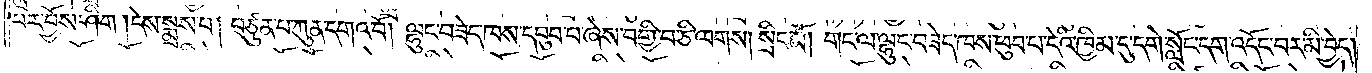པར་བྱོས་ཤིག །དེས་སྨྲས་པ། བཙུན་པ་ཀུན་དགའ་བོ། ལྷུང་བཟེད་ཁས་དབུབ་པ་ཞེས་བགྱི་བ་ཅི་ལགས། སྲིང་མོ། གང་ལ་ལྷུང་བཟེད་ཁས་ཕུབ་པ་དེའི་ཁྱིམ་དུ་དགེ་སློང་དག་འདོང་བར་མི་བྱེད་
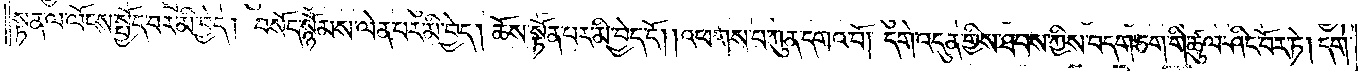སྟན་ལ་ལོངས་སྤྱོད་པར་མི་བྱེད། བསོད་སྙོམས་ལེན་པར་མི་བྱེད། ཆོས་སྟོན་པར་མི་བྱེད་དོ། །འཕགས་པ་ཀུན་དགའ་བོ། དགེ་འདུན་གྱིས་ཐབས་ཀྱིས་བདག་ཅག་གི་ཚུལ་ཤིང་བོར་ཏེ། དགེ་
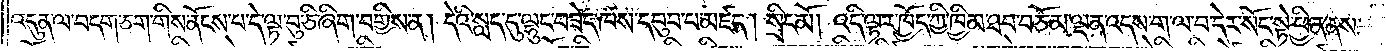འདུན་ལ་བདག་ཅག་གིས་ནོངས་པ་དེ་ལྟ་བུ་ཅི་ཞིག་བགྱིས་ན། དེའི་སླད་དུ་ལྷུང་བཟེད་ཁས་དབུབ་པ་མཛད། སྲིང་མོ། འདི་ལྟར་ཁྱོད་ཀྱི་ཁྱིམ་ཐབ་བཅོམ་ལྡན་འདས་ག་ལ་བ་དེར་སོང་སྟེ་ཕྱིན་ནས་
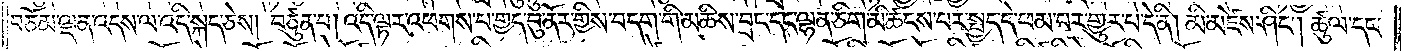བཅོམ་ལྡན་འདས་ལ་འདི་སྐད་ཅེས། བཙུན་པ། འདི་ལྟར་འཕགས་པ་གྱད་བུ་ནོར་གྱིས་བདག་གི་མཆིས་བྲང་དང་ལྷན་ཅིག་མི་ཚངས་པར་སྤྱད་དེ་ཕམ་པར་གྱུར་པ་དེ་ནི། མི་མཛེས་ཤིང༌། ཚུལ་དང་
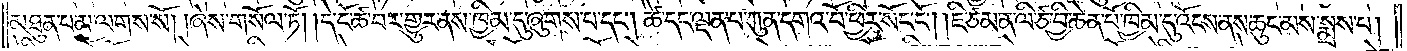མཐུན་པ་མ་ལགས་སོ། །ཞེས་གསོལ་ཏོ། །དེ་ངོ་ཚ་བར་གྱུར་ནས་ཁྱིམ་དུ་ཞུགས་པ་དང༌། ཚེ་དང་ལྡན་པ་ཀུན་དགའ་བོ་ཕྱིར་སོང་ངོ༌། །ཇི་ཙམ་ན་ལི་ཙ་བྱི་ཆེན་པོ་ཁྱིམ་དུ་འོངས་ནས་ཆུང་མས་སྨྲས་པ།
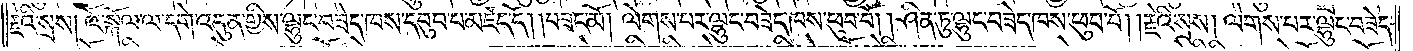རྗེའི་སྲས། འོ་སྐོལ་ལ་དགེ་འདུན་གྱིས་ལྷུང་བཟེད་ཁས་དབུབ་པ་མཛད་དོ། །བཟང་མོ། ལེགས་པར་ལྷུང་བཟེད་ཁས་ཕུབ་བོ། །ཤིན་ཏུ་ལྷུང་བཟེད་ཁས་ཕུབ་བོ། །རྗེའི་སྲས། ལེགས་པར་ལྷུང་བཟེད་
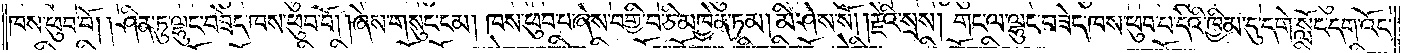ཁས་ཕུབ་བོ། །ཤིན་ཏུ་ལྷུང་བཟེད་ཁས་ཕུབ་བོ། །ཞེས་གསུང་ངམ། ཁས་ཕུབ་པ་ཞེས་བགྱི་བ་ཅི་མཁྱེན་ཏམ། མི་ཤེས་སོ། །རྗེའི་སྲས། གང་ལ་ལྷུང་བཟེད་ཁས་ཕུབ་པ་དེའི་ཁྱིམ་དུ་དགེ་སློང་དག་འོང་
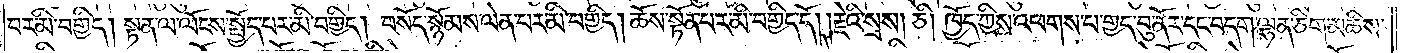བར་མི་བགྱིད། སྟན་ལ་ལོངས་སྤྱོད་པར་མི་བགྱིད། བསོད་སྙོམས་ལེན་པར་མི་བགྱིད། ཆོས་སྟོན་པར་མི་བགྱིད་དོ། །རྗེའི་སྲས། ཅི། ཁྱོད་ཀྱིས་འཕགས་པ་གྱད་བུ་ནོར་དང་བདག་ལྷན་ཅིག་མཆིས་
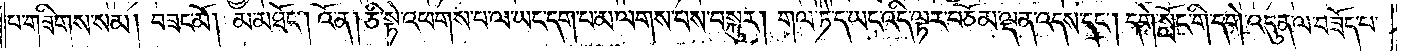པ་གཟིགས་སམ། བཟང་མོ། མ་མཐོང༌། འོ་ན། ཅི་སྟེ་འཕགས་པ་ལ་ཡང་དག་པ་མ་ལགས་པས་བསྐུར། གལ་ཏེ་ད་ཡང་འདི་ལྟར་བཅོམ་ལྡན་འདས་དང༌། དགེ་སློང་གི་དགེ་འདུན་ལ་བཟོད་པ་
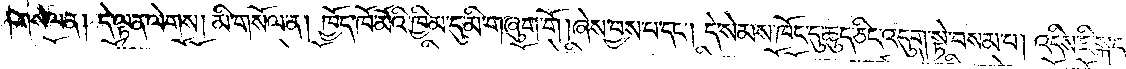གསོལ་ན། དེ་ལྟ་ན་ལེགས། མི་གསོལ་ན། ཁྱོད་ཁོ་མོའི་ཁྱིམ་དུ་མི་གཞུག་གོ །ཞེས་བྱས་པ་དང༌། དེ་སེམས་ཁོང་དུ་ཆུད་ཅིང་འདུག་སྟེ་བསམ་པ། འདིས་ཇི་སྐད་
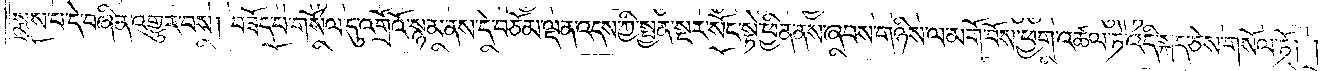སྨྲས་པ་དེ་བཞིན་འགྱུར་བས། བཟོད་པ་གསོལ་དུ་འགྲོའོ་སྙམ་ནས་དེ་བཅོམ་ལྡན་འདས་ཀྱི་སྤྱན་སྔར་སོང་སྟེ་ཕྱིན་ནས་ཞབས་གཉིས་ལ་མགོ་བོས་ཕྱག་འཚལ་ཏེ་འདི་སྐད་ཅེས་གསོལ་ཏོ། །
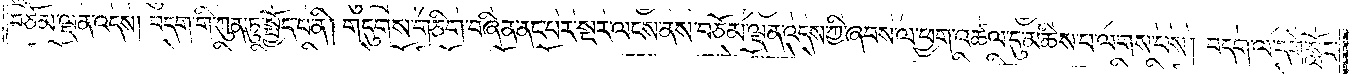བཅོམ་ལྡན་འདས། བདག་གི་ཀུན་ཏུ་སྤྱོད་པ་ནི། གདུགས་གཅིག་བཞིན་ནང་པར་སྔར་ལངས་ནས་བཅོམ་ལྡན་འདས་ཀྱི་ཞབས་ལ་ཕྱག་འཚལ་དུ་མཆིས་པ་ལགས་པས། བདག་ལ་དགེ་སློང་
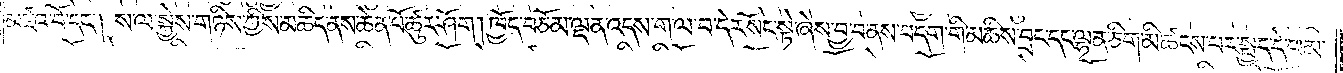མཛའ་བོ་དང༌། ས་ལ་སྐྱེས་གཉིས་ཀྱིས་མཆིད་ནས་ཆེན་པོ་ཚུར་ཤོག །ཁྱོད་བཅོམ་ལྡན་འདས་ག་ལ་བ་དེར་སོང་སྟེ་ཞེས་བྱ་བ་ནས་བདག་གི་མཆིས་བྲང་དང་ལྷན་ཅིག་མི་ཚངས་པར་སྤྱད་དེ་ཕམ་
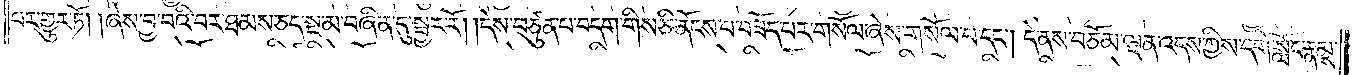པར་གྱུར་ཏོ། །ཞེས་བྱ་བའི་བར་ཐམས་ཅད་སྔ་མ་བཞིན་དུ་སྦྱར་རོ། །དེས་བཙུན་པ་བདག་གིས་ཅི་ནོངས་པ་བཟོད་པར་གསོལ་ཞེས་གསོལ་པ་དང༌། དེ་ནས་བཅོམ་ལྡན་འདས་ཀྱིས་དགེ་སློང་རྣམས་
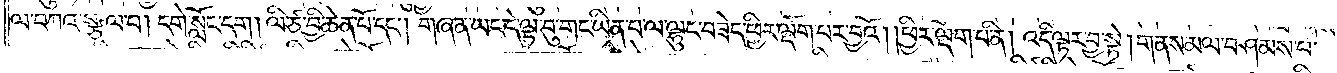ལ་བཀའ་སྩལ་པ། དགེ་སློང་དག །ལི་ཙ་བྱི་ཆེན་པོ་དང༌། གཞན་ཡང་དེ་ལྟ་བུ་གང་ཡིན་པ་ལ་ལྷུང་བཟེད་ཕྱིར་ལྡོག་པར་བྱའོ། །ཕྱིར་ལྡོག་པ་ནི། འདི་ལྟར་བྱ་སྟེ། གནས་མལ་བཤམས་པ་
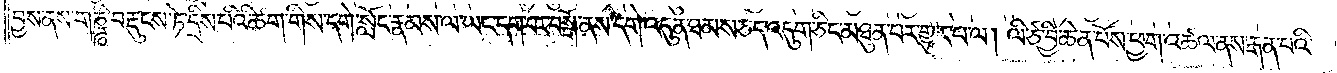བྱས་ནས་གཎྜཱི་བརྡུངས་ཏེ་དྲིས་པའི་ཚིག་གིས་དགེ་སློང་རྣམས་ལ་ཡང་དག་པར་བསྒོ་ནས་དགེ་འདུན་ཐམས་ཅད་འདུག་ཅིང་མཐུན་པར་གྱུར་པ་ལ། ལི་ཙ་བྱི་ཆེན་པོས་ཕྱག་འཚལ་ནས་རྒན་པའི་
